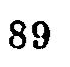89
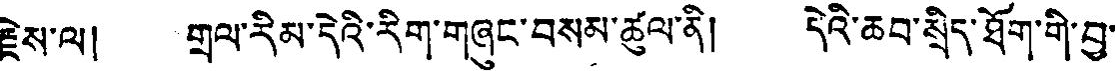རྗེས་ལ། གྲལ་རིམ་དེའི་རིག་གཞུང་བསམ་ཚུལ་ནི། དེའི་ཆབ་སྲིད་ཐོག་གི་བྱ་
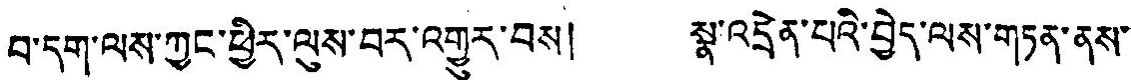བ་དག་ལས་ཀྱང་ཕྱིར་ལུས་བར་འགྱུར་བས། སྣ་འདྲེན་པའི་བྱེད་ལས་གཏན་ནས་
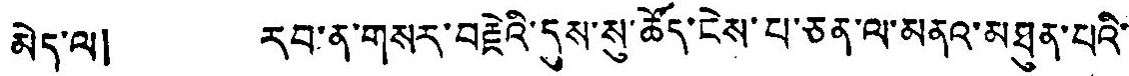མེད་ལ། རབ་ན་གསར་བརྗེའི་དུས་སུ་ཚོད་ངེས་པ་ཅན་ལ་མནའ་མཐུན་པའི་
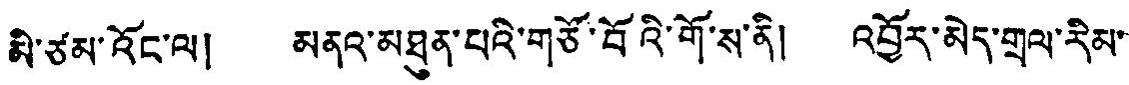མི་ཙམ་འོང་ལ། མནའ་མཐུན་པའི་གཙོ་བོའི་གོ་ས་ནི། འབྱོར་མེད་གྲལ་རིམ་
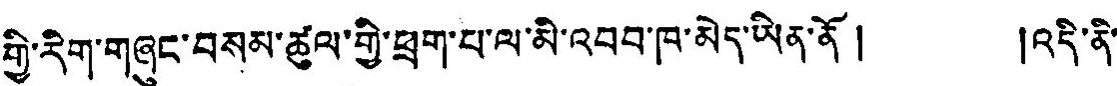གྱི་རིག་གཞུང་བསམ་ཚུལ་གྱི་ཕྲག་པ་ལ་མི་འབབ་ཁ་མེད་ཡིན་ནོ ། །འདི་ནི་
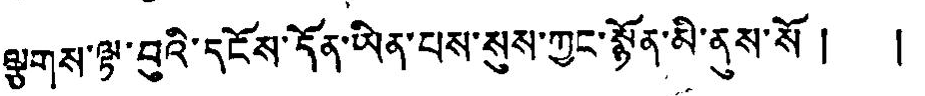ལྕགས་ལྟ་བུའི་དངོས་དོན་ཡིན་པས་སུས་ཀྱང་སྙོན་མི་ནུས་སོ ། །
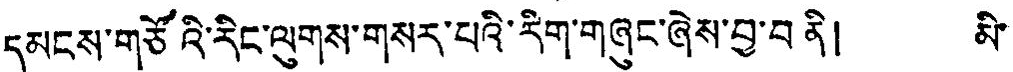དམངས་གཙོའི་རིང་ལུགས་གསར་པའི་རིག་གཞུང་ཞེས་བྱ་བནི། མི་
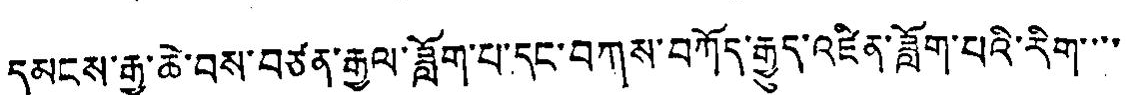དམངས་རྒྱ་ཆེ་བས་བཙན་རྒྱལ་ཟློག་པ་དང་བཀས་བཀོད་རྒྱུད་འཛིན་ཟློག་པའི་རིག་་་་
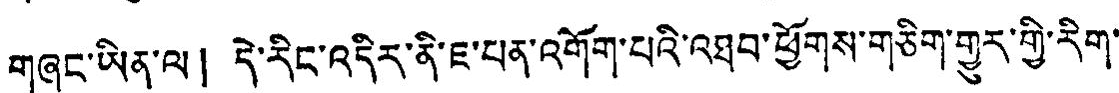གཞུང་ཡིན་ལ། དེ་རིང་འདིར་ནི་ཇ་པན་འགོག་པའི་འཐབ་ཕྱོགས་གཅིག་གྱུར་གྱི་རིག་
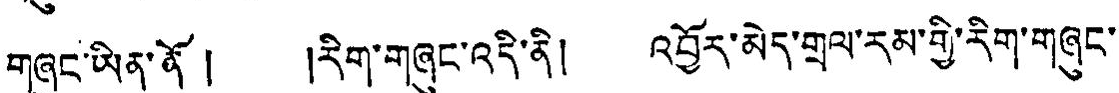གཞུང་ཡིན་ནོ། །རིག་གཞུང་འདི་ནི། འབྱོར་མེད་གྲལ་རམ་གྱི་རིག་གཞུང་
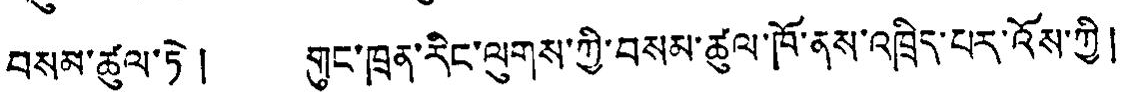བསམ་ཚུལ་ཏེ། གུང་ཁྲན་རིང་ལུགས་ཀྱི་བསམ་ཚུལ་ཁོ་ནས་འཁྲིད་པར་འོས་ཀྱི།
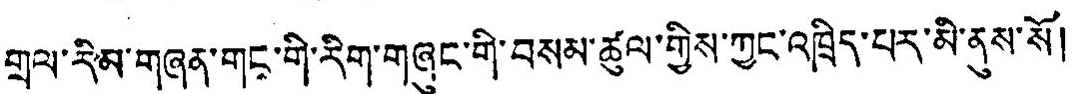གྲལ་རིམ་གཞན་གང་གི་རིག་གཞུང་གི་བསམ་ཚུལ་གྱིས་ཀྱང་འཁྲིད་པར་མི་ནུས་སོ།
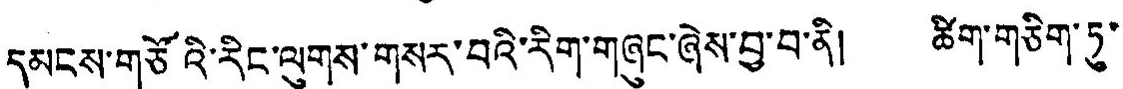དམངས་གཙོའི་རིང་ལུགས་གསར་བའི་རིག་གཞུང་ཞེས་བྱ་བ་ནི། ཚིག་གཅིག་ཏུ་
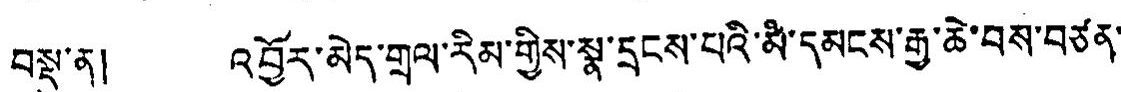བསྟུ་ན། འབྱོར་མེད་གྲལ་རིམ་གྱིས་སྣ་དྲངས་པའི་མི་དམངས་རྒྱ་ཆེ་བས་བཙན་
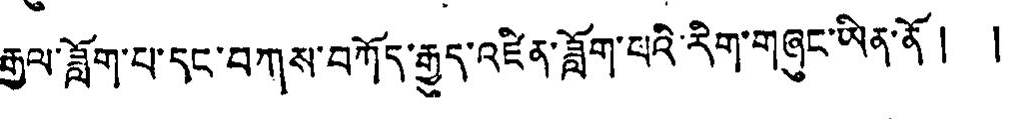རྒྱལ་ཟློག་པ་དང་བཀས་བཀོད་རྒྱུད་འཛིན་ཟློག་པའི་རིག་གཞུང་ཡིན་ནོ། །
